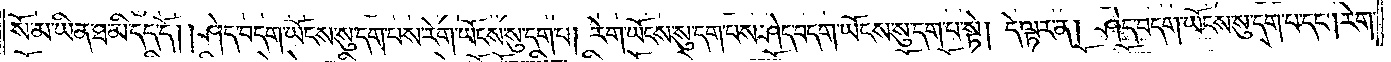སོ་མ་ཡིན་ཐ་མི་དད་དོ། །ཤེད་བདག་ཡོངས་སུ་དག་པས་རེག་ཡོངས་སུ་དག་པ། རེག་ཡོངས་སུ་དག་པས་ཤེད་བདག་ཡོངས་སུ་དག་པ་སྟེ། དེ་ལྟར་ན། ཤེད་བདག་ཡོངས་སུ་དག་པ་དང༌། རེག་
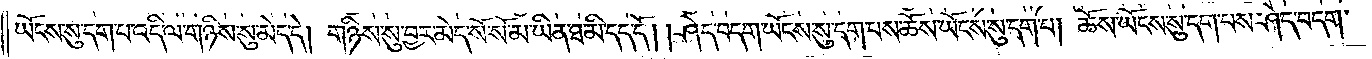ཡོངས་སུ་དག་པ་འདི་ལ་གཉིས་སུ་མེད་དེ། གཉིས་སུ་བྱར་མེད་སོ་སོ་མ་ཡིན་ཐ་མི་དད་དོ། །ཤེད་བདག་ཡོངས་སུ་དག་པས་ཆོས་ཡོངས་སུ་དག་པ། ཆོས་ཡོངས་སུ་དག་པས་ཤེད་བདག་
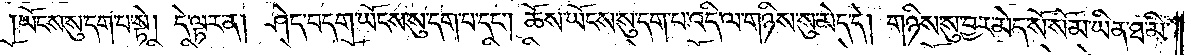ཡོངས་སུ་དག་པ་སྟེ། དེ་ལྟར་ན། ཤེད་བདག་ཡོངས་སུ་དག་པ་དང༌། ཆོས་ཡོངས་སུ་དག་པ་འདི་ལ་གཉིས་སུ་མེད་དེ། གཉིས་སུ་བྱར་མེད་སོ་སོ་མ་ཡིན་ཐ་མི་
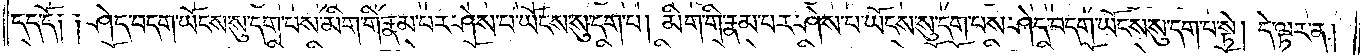དད་དོ༑ ༑ཤེད་བདག་ཡོངས་སུ་དག་པས་མིག་གི་རྣམ་པར་ཤེས་པ་ཡོངས་སུ་དག་པ། མིག་གི་རྣམ་པར་ཤེས་པ་ཡོངས་སུ་དག་པས་ཤེད་བདག་ཡོངས་སུ་དག་པ་སྟེ། དེ་ལྟར་ན།
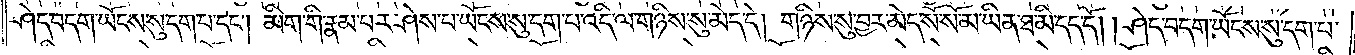ཤེད་བདག་ཡོངས་སུ་དག་པ་དང༌། མིག་གི་རྣམ་པར་ཤེས་པ་ཡོངས་སུ་དག་པ་འདི་ལ་གཉིས་སུ་མེད་དེ། གཉིས་སུ་བྱར་མེད་སོ་སོ་མ་ཡིན་ཐ་མི་དད་དོ། །ཤེད་བདག་ཡོངས་སུ་དག་པ་
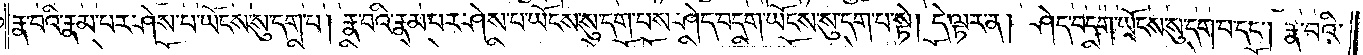རྣ་བའི་རྣམ་པར་ཤེས་པ་ཡོངས་སུ་དག་པ། རྣ་བའི་རྣམ་པར་ཤེས་པ་ཡོངས་སུ་དག་པས་ཤེད་བདག་ཡོངས་སུ་དག་པ་སྟེ། དེ་ལྟར་ན། ཤེད་བདག་ཡོངས་སུ་དག་པ་དང༌། རྣ་བའི་
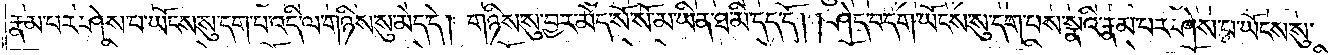རྣམ་པར་ཤེས་པ་ཡོངས་སུ་དག་པ་འདི་ལ་གཉིས་སུ་མེད་དེ། གཉིས་སུ་བྱར་མེད་སོ་སོ་མ་ཡིན་ཐ་མི་དད་དོ། །ཤེད་བདག་ཡོངས་སུ་དག་པས་སྣའི་རྣམ་པར་ཤེས་པ་ཡོངས་སུ་
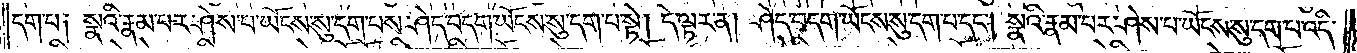དག་པ༑ སྣའི་རྣམ་པར་ཤེས་པ་ཡོངས་སུ་དག་པས་ཤེད་བདག་ཡོངས་སུ་དག་པ་སྟེ། དེ་ལྟར་ན། ཤེད་བདག་ཡོངས་སུ་དག་པ་དང༌། སྣའི་རྣམ་པར་ཤེས་པ་ཡོངས་སུ་དག་པ་འདི་
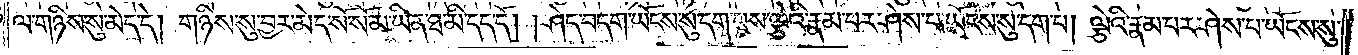ལ་གཉིས་སུ་མེད་དེ། གཉིས་སུ་བྱར་མེད་སོ་སོ་མ་ཡིན་ཐ་མི་དད་དོ། །ཤེད་བདག་ཡོངས་སུ་དག་པས་ལྕེའི་རྣམ་པར་ཤེས་པ་ཡོངས་སུ་དག་པ། ལྕེའི་རྣམ་པར་ཤེས་པ་ཡོངས་སུ་
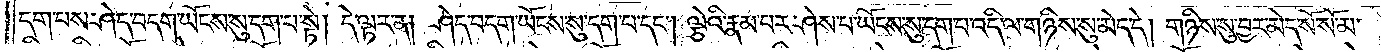དག་པས་ཤེད་བདག་ཡོངས་སུ་དག་པ་སྟེ། དེ་ལྟར་ན། ཤེད་བདག་ཡོངས་སུ་དག་པ་དང༌། ལྕེའི་རྣམ་པར་ཤེས་པ་ཡོངས་སུ་དག་པ་འདི་ལ་གཉིས་སུ་མེད་དེ། གཉིས་སུ་བྱར་མེད་སོ་སོ་མ་
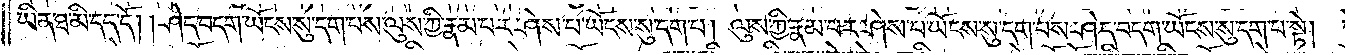ཡིན་ཐ་མི་དད་དོ། །ཤེད་བདག་ཡོངས་སུ་དག་པས་ལུས་ཀྱི་རྣམ་པར་ཤེས་པ་ཡོངས་སུ་དག་པ། ལུས་ཀྱི་རྣམ་པར་ཤེས་པ་ཡོངས་སུ་དག་པས་ཤེད་བདག་ཡོངས་སུ་དག་པ་སྟེ། དེ་
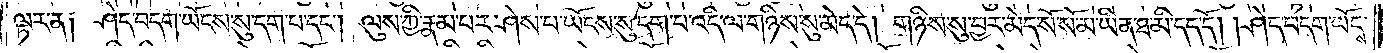ལྟར་ན༑ ཤེད་བདག་ཡོངས་སུ་དག་པ་དང༌། ལུས་ཀྱི་རྣམ་པར་ཤེས་པ་ཡོངས་སུ་དག་པ་འདི་ལ་གཉིས་སུ་མེད་དེ། གཉིས་སུ་བྱར་མེད་སོ་སོ་མ་ཡིན་ཐ་མི་དད་དོ། །ཤེད་བདག་ཡོངས་
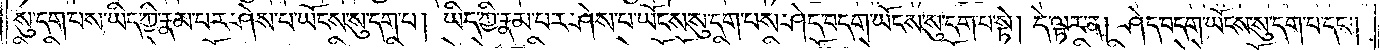སུ་དག་པས་ཡིད་ཀྱི་རྣམ་པར་ཤེས་པ་ཡོངས་སུ་དག་པ། ཡིད་ཀྱི་རྣམ་པར་ཤེས་པ་ཡོངས་སུ་དག་པས་ཤེད་བདག་ཡོངས་སུ་དག་པ་སྟེ། དེ་ལྟར་ན། ཤེད་བདག་ཡོངས་སུ་དག་པ་དང༌།
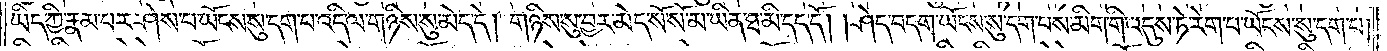ཡིད་ཀྱི་རྣམ་པར་ཤེས་པ་ཡོངས་སུ་དག་པ་འདི་ལ་གཉིས་སུ་མེད་དེ། གཉིས་སུ་བྱར་མེད་སོ་སོ་མ་ཡིན་ཐ་མི་དད་དོ། །ཤེད་བདག་ཡོངས་སུ་དག་པས་མིག་གི་འདུས་ཏེ་རེག་པ་ཡོངས་སུ་དག་པ།
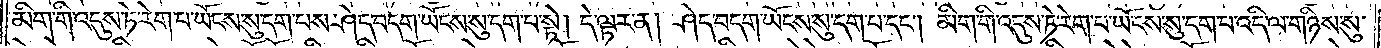མིག་གི་འདུས་ཏེ་རེག་པ་ཡོངས་སུ་དག་པས་ཤེད་བདག་ཡོངས་སུ་དག་པ་སྟེ། དེ་ལྟར་ན། ཤེད་བདག་ཡོངས་སུ་དག་པ་དང༌། མིག་གི་འདུས་ཏེ་རེག་པ་ཡོངས་སུ་དག་པ་འདི་ལ་གཉིས་སུ་
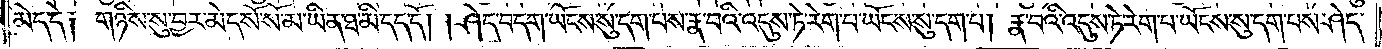མེད་དེ༑ གཉིས་སུ་བྱར་མེད་སོ་སོ་མ་ཡིན་ཐ་མི་དད་དོ། །ཤེད་བདག་ཡོངས་སུ་དག་པས་རྣ་བའི་འདུས་ཏེ་རེག་པ་ཡོངས་སུ་དག་པ། རྣ་བའི་འདུས་ཏེ་རེག་པ་ཡོངས་སུ་དག་པས་ཤེད་
